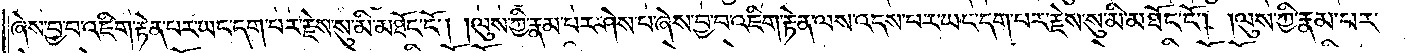ཞེས་བྱ་བ་འཇིག་རྟེན་པར་ཡང་དག་པར་རྗེས་སུ་མི་མཐོང་ངོ༌། །ལུས་ཀྱི་རྣམ་པར་ཤེས་པ་ཞེས་བྱ་བ་འཇིག་རྟེན་ལས་འདས་པར་ཡང་དག་པར་རྗེས་སུ་མི་མཐོང་ངོ༌། །ལུས་ཀྱི་རྣམ་པར་
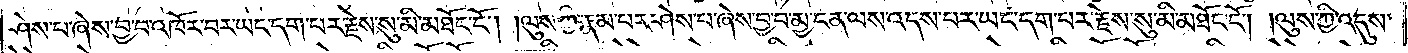ཤེས་པ་ཞེས་བྱ་བ་འཁོར་བར་ཡང་དག་པར་རྗེས་སུ་མི་མཐོང་ངོ༌། །ལུས་ཀྱི་རྣམ་པར་ཤེས་པ་ཞེས་བྱ་བ་མྱ་ངན་ལས་འདས་པར་ཡང་དག་པར་རྗེས་སུ་མི་མཐོང་ངོ༌། །ལུས་ཀྱི་འདུས་
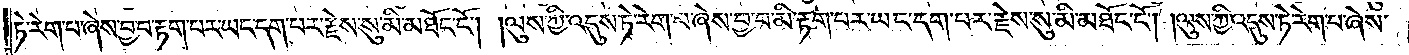ཏེ་རེག་པ་ཞེས་བྱ་བ་རྟག་པར་ཡང་དག་པར་རྗེས་སུ་མི་མཐོང་ངོ༌། །ལུས་ཀྱི་འདུས་ཏེ་རེག་པ་ཞེས་བྱ་བ་མི་རྟག་པར་ཡང་དག་པར་རྗེས་སུ་མི་མཐོང་ངོ༌། །ལུས་ཀྱི་འདུས་ཏེ་རེག་པ་ཞེས་
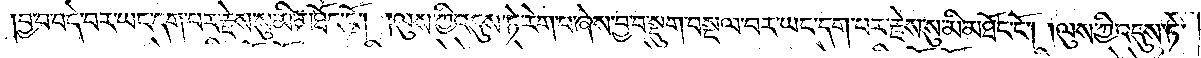བྱ་བ་བདེ་བར་ཡང་དག་པར་རྗེས་སུ་མི་མཐོང་ངོ༌། །ལུས་ཀྱི་འདུས་ཏེ་རེག་པ་ཞེས་བྱ་བ་སྡུག་བསྔལ་བར་ཡང་དག་པར་རྗེས་སུ་མི་མཐོང་ངོ༌། །ལུས་ཀྱི་འདུས་ཏེ་
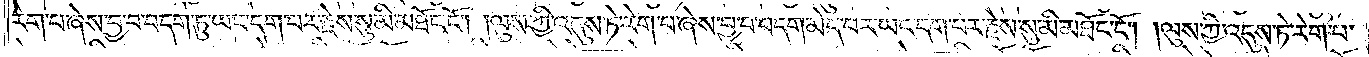རེག་པ་ཞེས་བྱ་བ་བདག་ཏུ་ཡང་དག་པར་རྗེས་སུ་མི་མཐོང་ངོ༌། །ལུས་ཀྱི་འདུས་ཏེ་རེག་པ་ཞེས་བྱ་བ་བདག་མེད་པར་ཡང་དག་པར་རྗེས་སུ་མི་མཐོང་ངོ༌། །ལུས་ཀྱི་འདུས་ཏེ་རེག་པ་
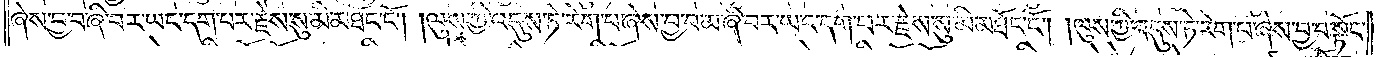ཞེས་བྱ་བ་ཞི་བར་ཡང་དག་པར་རྗེས་སུ་མི་མཐོང་ངོ༌། །ལུས་ཀྱི་འདུས་ཏེ་རེག་པ་ཞེས་བྱ་བ་མ་ཞི་བར་ཡང་དག་པར་རྗེས་སུ་མི་མཐོང་ངོ༌། །ལུས་ཀྱི་འདུས་ཏེ་རེག་པ་ཞེས་བྱ་བ་སྟོང་
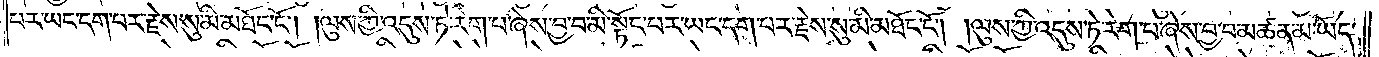པར་ཡང་དག་པར་རྗེས་སུ་མི་མཐོང་ངོ༌། །ལུས་ཀྱི་འདུས་ཏེ་རེག་པ་ཞེས་བྱ་བ་མི་སྟོང་པར་ཡང་དག་པར་རྗེས་སུ་མི་མཐོང་ངོ༌། །ལུས་ཀྱི་འདུས་ཏེ་རེག་པ་ཞེས་བྱ་བ་མཚན་མ་ཡོད་
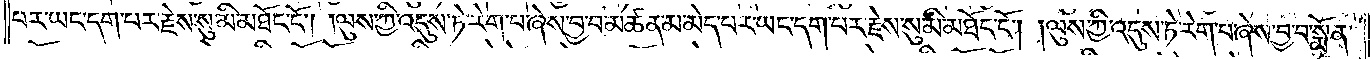པར་ཡང་དག་པར་རྗེས་སུ་མི་མཐོང་ངོ༌། །ལུས་ཀྱི་འདུས་ཏེ་རེག་པ་ཞེས་བྱ་བ་མཚན་མ་མེད་པར་ཡང་དག་པར་རྗེས་སུ་མི་མཐོང་ངོ༌། །ལུས་ཀྱི་འདུས་ཏེ་རེག་པ་ཞེས་བྱ་བ་སྨོན་
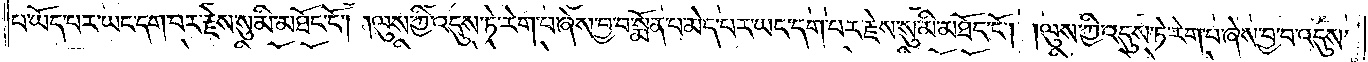པ་ཡོད་པར་ཡང་དག་པར་རྗེས་སུ་མི་མཐོང་ངོ༌། །ལུས་ཀྱི་འདུས་ཏེ་རེག་པ་ཞེས་བྱ་བ་སྨོན་པ་མེད་པར་ཡང་དག་པར་རྗེས་སུ་མི་མཐོང་ངོ༌། །ལུས་ཀྱི་འདུས་ཏེ་རེག་པ་ཞེས་བྱ་བ་འདུས་
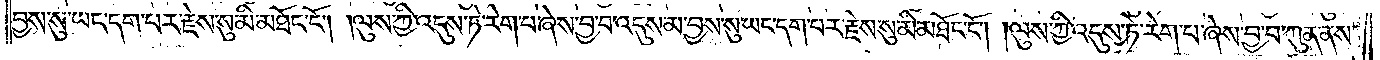བྱས་སུ་ཡང་དག་པར་རྗེས་སུ་མི་མཐོང་ངོ༌། །ལུས་ཀྱི་འདུས་ཏེ་རེག་པ་ཞེས་བྱ་བ་འདུས་མ་བྱས་སུ་ཡང་དག་པར་རྗེས་སུ་མི་མཐོང་ངོ༌། །ལུས་ཀྱི་འདུས་ཏེ་རེག་པ་ཞེས་བྱ་བ་ཀུན་ནས་
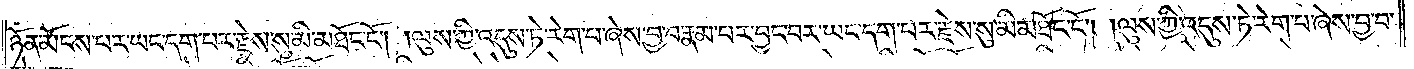ཉོན་མོངས་པར་ཡང་དག་པར་རྗེས་སུ་མི་མཐོང་ངོ༌། །ལུས་ཀྱི་འདུས་ཏེ་རེག་པ་ཞེས་བྱ་བ་རྣམ་པར་བྱང་བར་ཡང་དག་པར་རྗེས་སུ་མི་མཐོང་ངོ༌། །ལུས་ཀྱི་འདུས་ཏེ་རེག་པ་ཞེས་བྱ་བ་
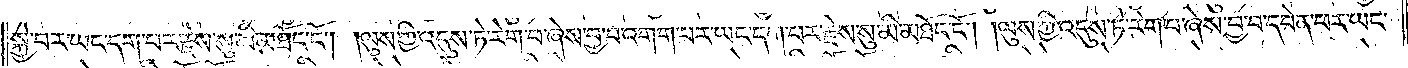སྐྱེ་བར་ཡང་དག་པར་རྗེས་སུ་མི་མཐོང་ངོ༌། །ལུས་ཀྱི་འདུས་ཏེ་རེག་པ་ཞེས་བྱ་བ་འགག་པར་ཡང་དག་པར་རྗེས་སུ་མི་མཐོང་ངོ༌། །ལུས་ཀྱི་འདུས་ཏེ་རེག་པ་ཞེས་བྱ་བ་དབེན་པར་ཡང་
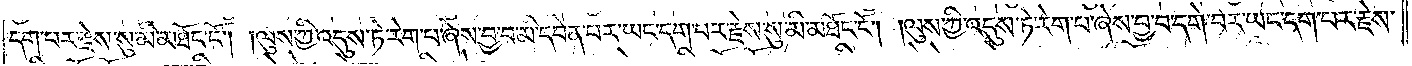དག་པར་རྗེས་སུ་མི་མཐོང་ངོ༌། །ལུས་ཀྱི་འདུས་ཏེ་རེག་པ་ཞེས་བྱ་བ་མི་དབེན་པར་ཡང་དག་པར་རྗེས་སུ་མི་མཐོང་ངོ༌། །ལུས་ཀྱི་འདུས་ཏེ་རེག་པ་ཞེས་བྱ་བ་དགེ་བར་ཡང་དག་པར་རྗེས་
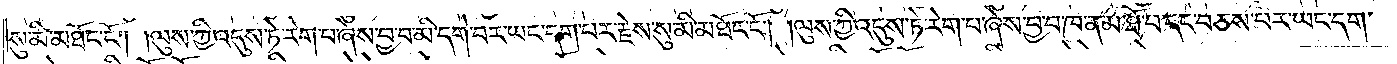སུ་མི་མཐོང་ངོ༌། །ལུས་ཀྱི་འདུས་ཏེ་རེག་པ་ཞེས་བྱ་བ་མི་དགེ་བར་ཡང་དག་པར་རྗེས་སུ་མི་མཐོང་ངོ༌། །ལུས་ཀྱི་འདུས་ཏེ་རེག་པ་ཞེས་བྱ་བ་ཁ་ན་མ་ཐོ་བ་དང་བཅས་པར་ཡང་དག་
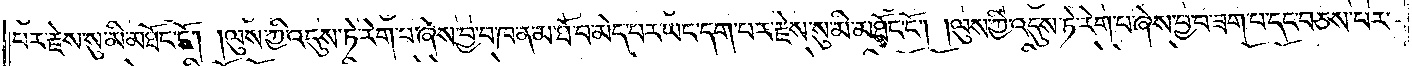པར་རྗེས་སུ་མི་མཐོང་ངོ༌། །ལུས་ཀྱི་འདུས་ཏེ་རེག་པ་ཞེས་བྱ་བ་ཁ་ན་མ་ཐོ་བ་མེད་པར་ཡང་དག་པར་རྗེས་སུ་མི་མཐོང་ངོ༌། །ལུས་ཀྱི་འདུས་ཏེ་རེག་པ་ཞེས་བྱ་བ་ཟག་པ་དང་བཅས་པར་
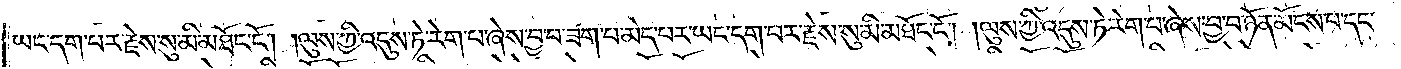ཡང་དག་པར་རྗེས་སུ་མི་མཐོང་ངོ༌། །ལུས་ཀྱི་འདུས་ཏེ་རེག་པ་ཞེས་བྱ་བ་ཟག་པ་མེད་པར་ཡང་དག་པར་རྗེས་སུ་མི་མཐོང་ངོ༌། །ལུས་ཀྱི་འདུས་ཏེ་རེག་པ་ཞེས་བྱ་བ་ཉོན་མོངས་པ་དང་
